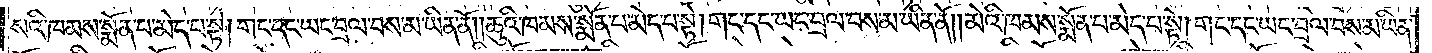སའི་ཁམས་སྨོན་པ་མེད་པ་སྟེ། གང་དང་ཡང་བྲལ་བས་མ་ཡིན་ནོ། །ཆུའི་ཁམས་སྨོན་པ་མེད་པ་སྟེ། གང་དང་ཡང་བྲལ་བས་མ་ཡིན་ནོ། །མེའི་ཁམས་སྨོན་པ་མེད་པ་སྟེ། གང་དང་ཡང་བྲལ་བས་མ་ཡིན་
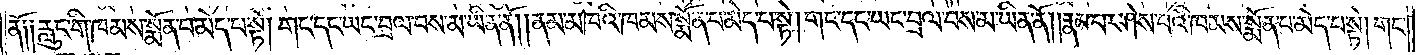ནོ༑ ༑རླུང་གི་ཁམས་སྨོན་པ་མེད་པ་སྟེ། གང་དང་ཡང་བྲལ་བས་མ་ཡིན་ནོ། །ནམ་མཁའི་ཁམས་སྨོན་པ་མེད་པ་སྟེ། གང་དང་ཡང་བྲལ་བས་མ་ཡིན་ནོ། །རྣམ་པར་ཤེས་པའི་ཁམས་སྨོན་པ་མེད་པ་སྟེ། གང་
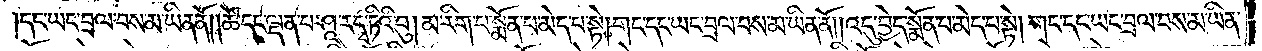དང་ཡང་བྲལ་བས་མ་ཡིན་ནོ། །ཚེ་དང་ལྡན་པ་ཤཱ་ར་དྭ་ཏིའི་བུ། མ་རིག་པ་སྨོན་པ་མེད་པ་སྟེ། གང་དང་ཡང་བྲལ་བས་མ་ཡིན་ནོ། །འདུ་བྱེད་སྨོན་པ་མེད་པ་སྟེ། གང་དང་ཡང་བྲལ་བས་མ་ཡིན་
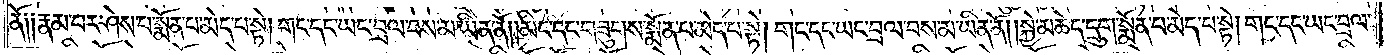ནོ༑ ༑རྣམ་པར་ཤེས་པ་སྨོན་པ་མེད་པ་སྟེ། གང་དང་ཡང་བྲལ་བས་མ་ཡིན་ནོ། །མིང་དང་གཟུགས་སྨོན་པ་མེད་པ་སྟེ། གང་དང་ཡང་བྲལ་བས་མ་ཡིན་ནོ། །སྐྱེ་མཆེད་དྲུག་སྨོན་པ་མེད་པ་སྟེ། གང་དང་ཡང་བྲལ་
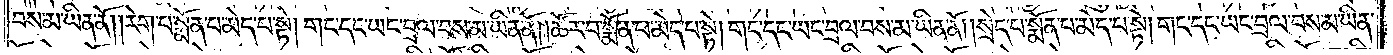བས་མ་ཡིན་ནོ། །རེག་པ་སྨོན་པ་མེད་པ་སྟེ། གང་དང་ཡང་བྲལ་བས་མ་ཡིན་ནོ། །ཚོར་བ་སྨོན་པ་མེད་པ་སྟེ། གང་དང་ཡང་བྲལ་བས་མ་ཡིན་ནོ། །སྲེད་པ་སྨོན་པ་མེད་པ་སྟེ། གང་དང་ཡང་བྲལ་བས་མ་ཡིན་
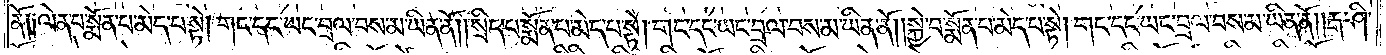ནོ༑ ༑ལེན་པ་སྨོན་པ་མེད་པ་སྟེ། གང་དང་ཡང་བྲལ་བས་མ་ཡིན་ནོ། །སྲིད་པ་སྨོན་པ་མེད་པ་སྟེ། གང་དང་ཡང་བྲལ་བས་མ་ཡིན་ནོ། །སྐྱེ་བ་སྨོན་པ་མེད་པ་སྟེ། གང་དང་ཡང་བྲལ་བས་མ་ཡིན་ནོ། །རྒ་ཤི་
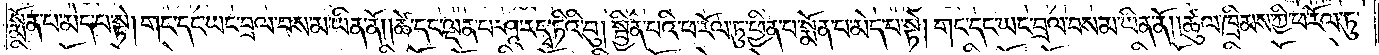སྨོན་པ་མེད་པ་སྟེ། གང་དང་ཡང་བྲལ་བས་མ་ཡིན་ནོ། །ཚེ་དང་ལྡན་པ་ཤཱ་ར་དྭ་ཏིའི་བུ། སྦྱིན་པའི་ཕ་རོལ་ཏུ་ཕྱིན་པ་སྨོན་པ་མེད་པ་སྟེ། གང་དང་ཡང་བྲལ་བས་མ་ཡིན་ནོ། །ཚུལ་ཁྲིམས་ཀྱི་ཕ་རོལ་ཏུ་
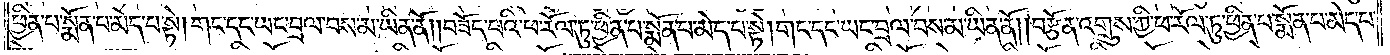ཕྱིན་པ་སྨོན་པ་མེད་པ་སྟེ། གང་དང་ཡང་བྲལ་བས་མ་ཡིན་ནོ། །བཟོད་པའི་ཕ་རོལ་ཏུ་ཕྱིན་པ་སྨོན་པ་མེད་པ་སྟེ། གང་དང་ཡང་བྲལ་བས་མ་ཡིན་ནོ། །བརྩོན་འགྲུས་ཀྱི་ཕ་རོལ་ཏུ་ཕྱིན་པ་སྨོན་པ་མེད་པ་
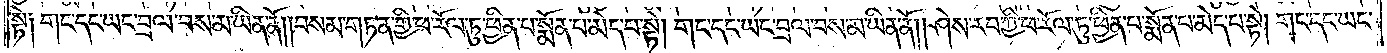སྟེ༑ གང་དང་ཡང་བྲལ་བས་མ་ཡིན་ནོ། །བསམ་གཏན་གྱི་ཕ་རོལ་ཏུ་ཕྱིན་པ་སྨོན་པ་མེད་པ་སྟེ། གང་དང་ཡང་བྲལ་བས་མ་ཡིན་ནོ། །ཤེས་རབ་ཀྱི་ཕ་རོལ་ཏུ་ཕྱིན་པ་སྨོན་པ་མེད་པ་སྟེ། གང་དང་ཡང་
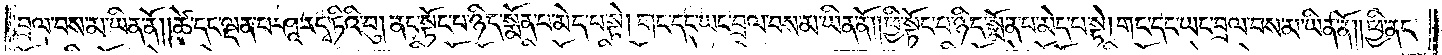བྲལ་བས་མ་ཡིན་ནོ། །ཚེ་དང་ལྡན་པ་ཤཱ་ར་དྭ་ཏིའི་བུ། ནང་སྟོང་པ་ཉིད་སྨོན་པ་མེད་པ་སྟེ། གང་དང་ཡང་བྲལ་བས་མ་ཡིན་ནོ། །ཕྱི་སྟོང་པ་ཉིད་སྨོན་པ་མེད་པ་སྟེ། གང་དང་ཡང་བྲལ་བས་མ་ཡིན་ནོ། །ཕྱི་ནང་
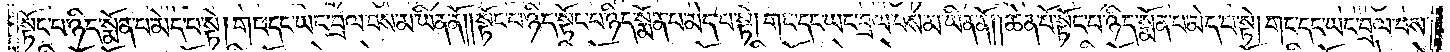སྟོང་པ་ཉིད་སྨོན་པ་མེད་པ་སྟེ། གང་དང་ཡང་བྲལ་བས་མ་ཡིན་ནོ། །སྟོང་པ་ཉིད་སྟོང་པ་ཉིད་སྨོན་པ་མེད་པ་སྟེ། གང་དང་ཡང་བྲལ་བས་མ་ཡིན་ནོ། །ཆེན་པོ་སྟོང་པ་ཉིད་སྨོན་པ་མེད་པ་སྟེ། གང་དང་ཡང་བྲལ་བས་
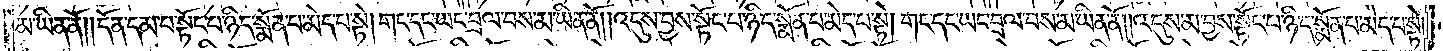མ་ཡིན་ནོ། །དོན་དམ་པ་སྟོང་པ་ཉིད་སྨོན་པ་མེད་པ་སྟེ། གང་དང་ཡང་བྲལ་བས་མ་ཡིན་ནོ། །འདུས་བྱས་སྟོང་པ་ཉིད་སྨོན་པ་མེད་པ་སྟེ། གང་དང་ཡང་བྲལ་བས་མ་ཡིན་ནོ། །འདུས་མ་བྱས་སྟོང་པ་ཉིད་སྨོན་པ་མེད་པ་སྟེ།
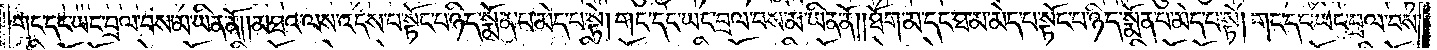གང་དང་ཡང་བྲལ་བས་མ་ཡིན་ནོ། །མཐའ་ལས་འདས་པ་སྟོང་པ་ཉིད་སྨོན་པ་མེད་པ་སྟེ། གང་དང་ཡང་བྲལ་བས་མ་ཡིན་ནོ། །ཐོག་མ་དང་ཐ་མ་མེད་པ་སྟོང་པ་ཉིད་སྨོན་པ་མེད་པ་སྟེ། གང་དང་ཡང་བྲལ་བས་
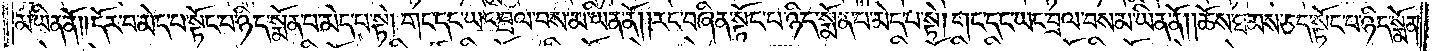མ་ཡིན་ནོ། །དོར་བ་མེད་པ་སྟོང་པ་ཉིད་སྨོན་པ་མེད་པ་སྟེ། གང་དང་ཡང་བྲལ་བས་མ་ཡིན་ནོ། །རང་བཞིན་སྟོང་པ་ཉིད་སྨོན་པ་མེད་པ་སྟེ། གང་དང་ཡང་བྲལ་བས་མ་ཡིན་ནོ། །ཆོས་ཐམས་ཅད་སྟོང་པ་ཉིད་སྨོན་
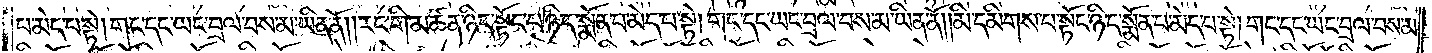པ་མེད་པ་སྟེ། གང་དང་ཡང་བྲལ་བས་མ་ཡིན་ནོ། །རང་གི་མཚན་ཉིད་སྟོང་པ་ཉིད་སྨོན་པ་མེད་པ་སྟེ། གང་དང་ཡང་བྲལ་བས་མ་ཡིན་ནོ། མི་དམིགས་པ་སྟོང་པ་ཉིད་སྨོན་པ་མེད་པ་སྟེ། གང་དང་ཡང་བྲལ་བས་མ་
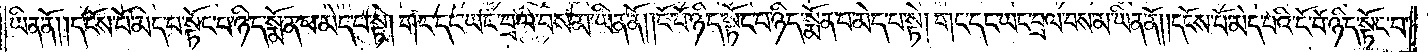ཡིན་ནོ། །དངོས་པོ་མེད་པ་སྟོང་པ་ཉིད་སྨོན་པ་མེད་པ་སྟེ། གང་དང་ཡང་བྲལ་བས་མ་ཡིན་ནོ། །ངོ་བོ་ཉིད་སྟོང་པ་ཉིད་སྨོན་པ་མེད་པ་སྟེ། གང་དང་ཡང་བྲལ་བས་མ་ཡིན་ནོ། །དངོས་པོ་མེད་པའི་ངོ་བོ་ཉིད་སྟོང་པ་
